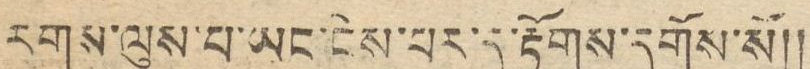རགས་ལུས་པ་ཡང་ངེས་པར་དུ་རྟོགས་དགོས་སོ།།
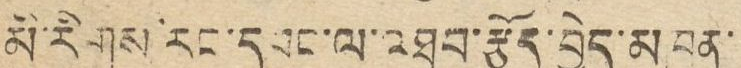མི་རིགས་རང་དབང་ལ་འཐབ་རྩོད་བྱེད་མཁན་
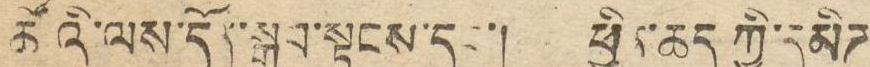ཚོའི་ལས་དོན་སྒྲུབ་སྟངས་དང་། ཕྱིན་ཆད ཀྱི་དམིཊ
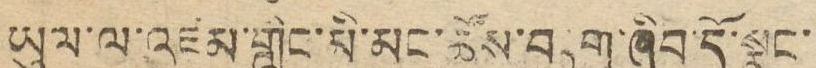ཡུལ་ལ་འཛམ་གླིང་མི་མང་ཚོས་བཏག་ཞིབ་དོ་སྣང་
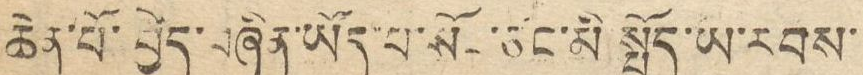ཆེན་པོ་བྱེད་བཞིན་ཡོད་པ་སོང་ཙང་མི སྤྱོད་ཡ་རབས་
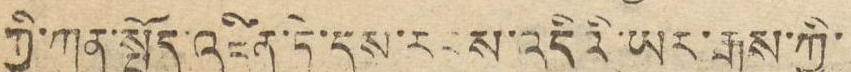ཀྱི་ཀུན་སྤྱོད་འཛིན་ཏེ་དུས་རབས་འདིའི་ཡར་རྒྱས་ཀྱི་
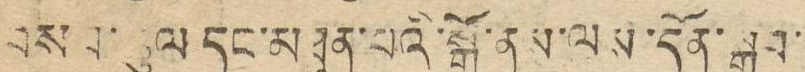བསམ་ཚུལ་དང་མཐུན་པའི་སྒོ་ནས་ལས་དོན་སྒྲུབ་
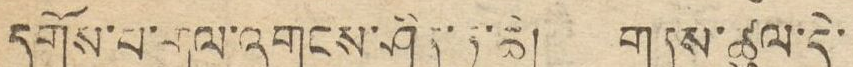དགོས་པ་གལ་འགངས་ཤིན་ཏུ་ཆེ། གནས་ཚུལ་དེ་
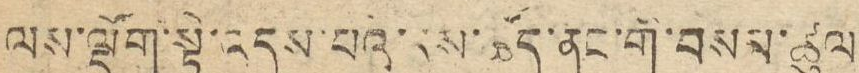ལས་ལྡོག་སྟེ་འདས་པའི་དུས་ཚོད་ནང་གི་བསམ་ཚུལ
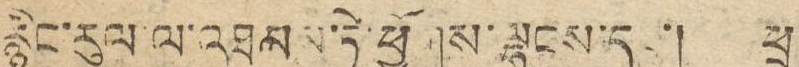རྙིང་རུལ་ལ་འཐམས་ཏེ་ཕྱོགས་ལྷུངས་དང་། ཕྲ
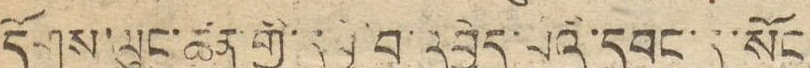དགོས་ལུང་ཚན་གྱི་དབྱེ་བ་འབྱེད་པའི་དབང་དུ་སོང
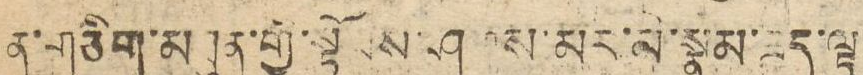ན་གཅིག་མཐུན་གྱི་སྟོབས་ཤུགས་མར་མི་སྣུམ་ཟད་ལྟ
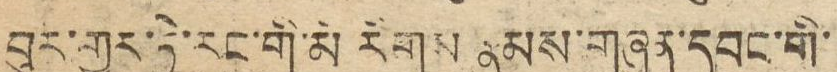བུར་གྱུར་ཏེ་རང་གི་མི རིགས རྣམས་གཞན་དབང་གི་
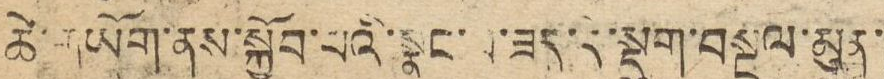ཚེ་གཡོག་ནས་སྐྱོབ་པའི་སྣང་བ་ཟད་དེ་སྡུག་བསྔལ་མུན་
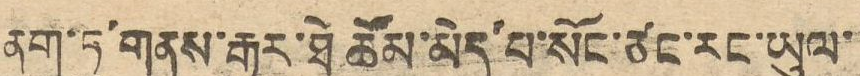ནག་ཏུ་གནས་རྒྱུར་ཐེ ཚོམ་མེད་པ་སོང་ཙང་རང་ཡུལ་
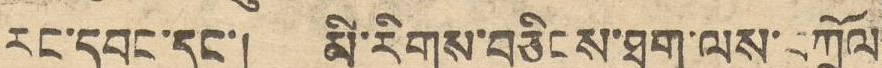རང་དབང་དང་། མི་རིགས་བཅིངས་ཐག་ལས་བཀྲོལ་
